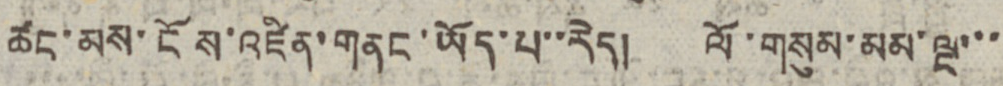ཚང་མས་ངོས་འཛིན་གནང་ཡོད་པ་་རེད། ལོ་གསུམ་མམ་ལྔ་་་
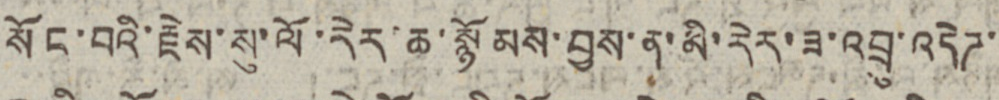སོང་བའི་རྗེས་སུ་ལོ་རེར་ཆ་སྙོམས་བྱས་ན་མི་རེར་ཟ་འབྲུ་འདེཊ་
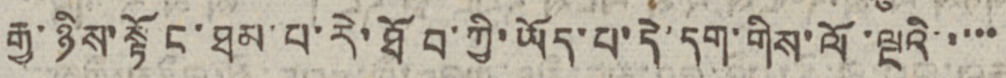རྒྱ་ཉིས་སྟོང་ཐམ་པ་རེ་ཐོབ་ཀྱི་ཡོད་པ་དེ་དག་གིས་ལོ་ལྔའི་་་་་
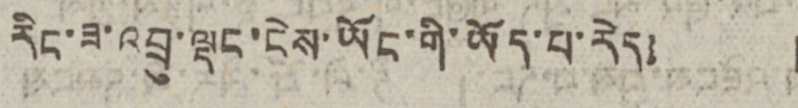རིང་ཟ་འབྲུ་ལྡང་ངེས་ཡོང་གི་ཡོད་པ་རེད། །
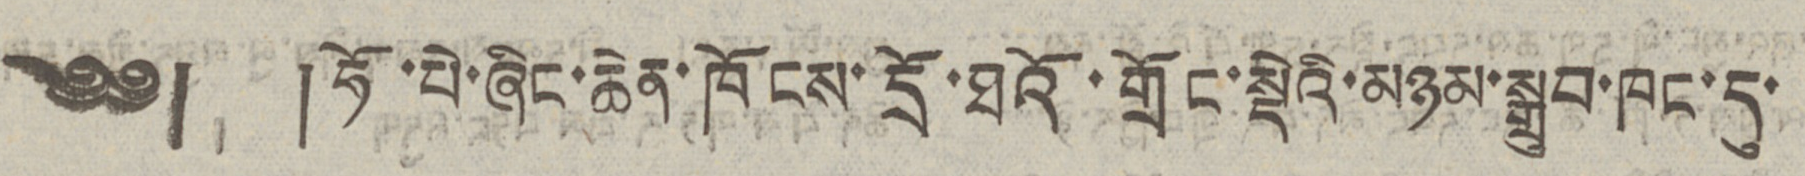༄༅། །ཧོ་པེ་ཞིང་ཆེན་ཁོངས་དྲོ་ཐའོ་གྲོང་སྡེའི་མཉམ་སྒྲུབ་ཁང་དུ་
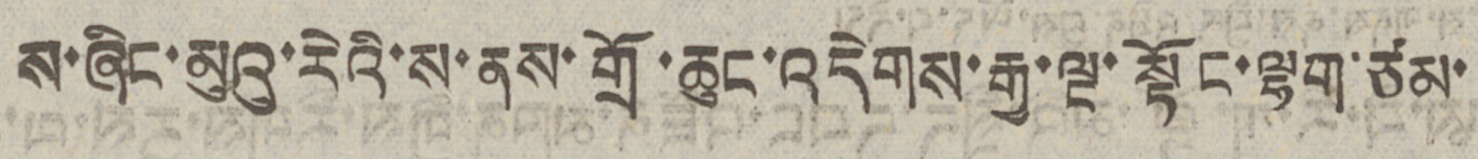ས་ཞིང་མུའུ་རེའི་ས་ནས་གྲོ་ཆུང་འདེགས་རྒྱ་ལྔ་སྟོང་ལྷག་ཙམ་
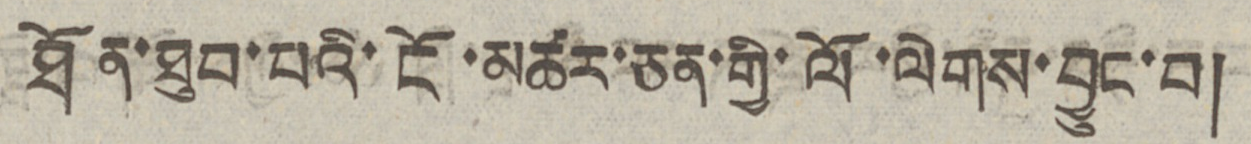ཐོན་ཐུབ་པའི་ངོ་མཚར་ཅན་གྱི་ལོ་ལེགས་བྱུང་བ།
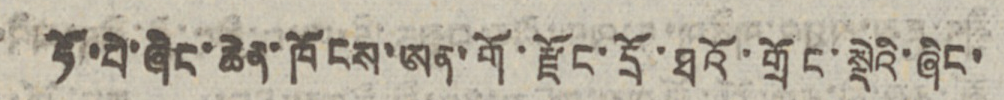ཧོ་པེ་ཞིང་ཆེན་ཁོངས་ཨན་གོ་རྫོང་དྲོ་ཐའོ་གྲོང་སྡེའི་ཞིང་
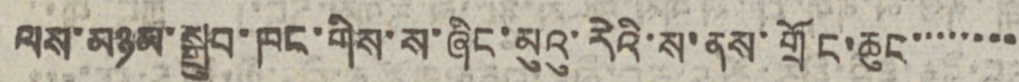ལས་མཉམ་སྒྲུབ་ཁང་གིས་ས་ཞིང་མུའུ་རེའི་ས་ནས་གྲོང་ཆུང་་་་་་་་
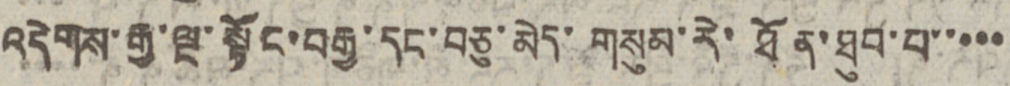འདེགས་རྒྱ་ལྔ་སྟོང་བརྒྱ་དང་བཅུ་མེད་གསུམ་རེ་ཐོན་ཐུབ་པ་་་་་
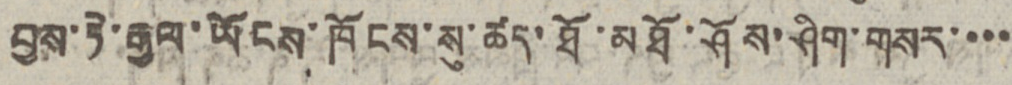བྱས་ཏེ་རྒྱལ་ཡོངས་ཁོངས་སུ་ཚད་ཐོ་མཐོ་ཤོས་ཤིག་གསར་་་་
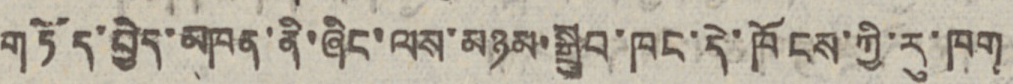གཏོད་བྱེད་མཁན་ནི་ཞིང་ལས་མཉམ་སྒྲུབ་ཁང་དེ་ཁོངས་ཀྱི་རུ་ཁག
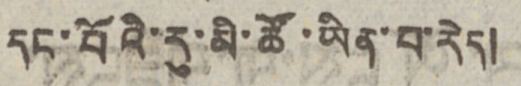དང་པོའི་རུ་མི་ཚོ་ཡིན་པ་རེད།
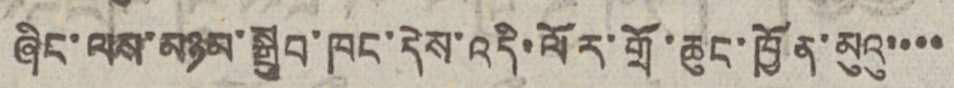ཞིང་ལས་མཉམ་སྒྲུབ་ཁང་དེས་འདི་ལོར་གྲོ་ཆུང་ཁྱོན་མུའུ་་་་
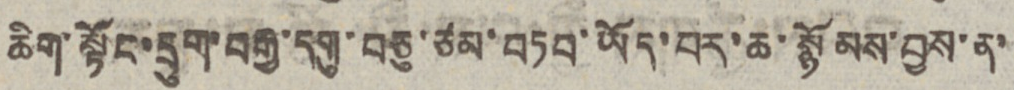ཆིག་སྟོང་དྲུག་བརྒྱ་དགུ་བཅུ་ཙམ་བཏབ་ཡོད་བར་ཆ་སྙོམས་བྱས་ན་
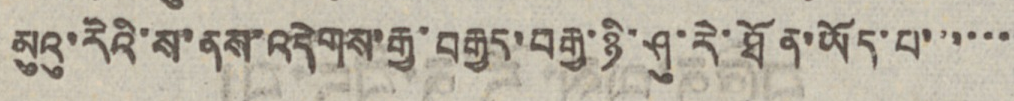མུའུ་རེའི་ས་ནས་འདེགས་རྒྱ་བརྒྱད་བརྒྱ་ཉི་ཤུ་རེ་ཐོན་ཡོད་པ་་་་་་
